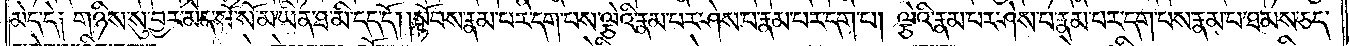མེད་དེ༑ གཉིས་སུ་བྱར་མེད་སོ་སོ་མ་ཡིན་ཐ་མི་དད་དོ། །སྟོབས་རྣམ་པར་དག་པས་ལྕེའི་རྣམ་པར་ཤེས་པ་རྣམ་པར་དག་པ། ལྕེའི་རྣམ་པར་ཤེས་པ་རྣམ་པར་དག་པས་རྣམ་པ་ཐམས་ཅད་
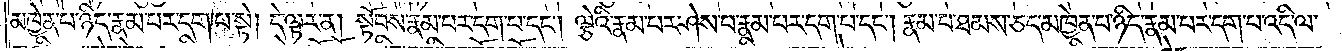མཁྱེན་པ་ཉིད་རྣམ་པར་དག་པ་སྟེ། དེ་ལྟར་ན། སྟོབས་རྣམ་པར་དག་པ་དང༌། ལྕེའི་རྣམ་པར་ཤེས་པ་རྣམ་པར་དག་པ་དང༌། རྣམ་པ་ཐམས་ཅད་མཁྱེན་པ་ཉིད་རྣམ་པར་དག་པ་འདི་ལ་
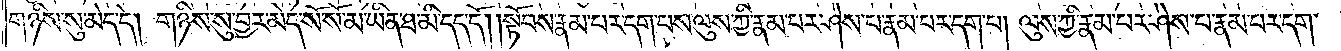གཉིས་སུ་མེད་དེ། གཉིས་སུ་བྱར་མེད་སོ་སོ་མ་ཡིན་ཐ་མི་དད་དོ། །སྟོབས་རྣམ་པར་དག་པས་ལུས་ཀྱི་རྣམ་པར་ཤེས་པ་རྣམ་པར་དག་པ། ལུས་ཀྱི་རྣམ་པར་ཤེས་པ་རྣམ་པར་དག་
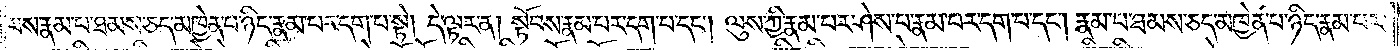པས་རྣམ་པ་ཐམས་ཅད་མཁྱེན་པ་ཉིད་རྣམ་པར་དག་པ་སྟེ། དེ་ལྟར་ན། སྟོབས་རྣམ་པར་དག་པ་དང༌། ལུས་ཀྱི་རྣམ་པར་ཤེས་པ་རྣམ་པར་དག་པ་དང༌། རྣམ་པ་ཐམས་ཅད་མཁྱེན་པ་ཉིད་རྣམ་པར་
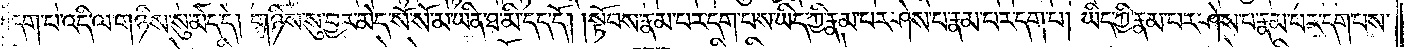དག་པ་འདི་ལ་གཉིས་སུ་མེད་དེ། གཉིས་སུ་བྱར་མེད་སོ་སོ་མ་ཡིན་ཐ་མི་དད་དོ། །སྟོབས་རྣམ་པར་དག་པས་ཡིད་ཀྱི་རྣམ་པར་ཤེས་པ་རྣམ་པར་དག་པ། ཡིད་ཀྱི་རྣམ་པར་ཤེས་པ་རྣམ་པར་དག་པས་
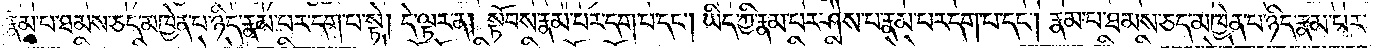རྣམ་པ་ཐམས་ཅད་མཁྱེན་པ་ཉིད་རྣམ་པར་དག་པ་སྟེ། དེ་ལྟར་ན། སྟོབས་རྣམ་པར་དག་པ་དང༌། ཡིད་ཀྱི་རྣམ་པར་ཤེས་པ་རྣམ་པར་དག་པ་དང༌། རྣམ་པ་ཐམས་ཅད་མཁྱེན་པ་ཉིད་རྣམ་པར་
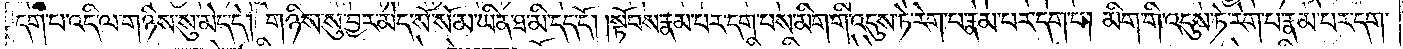དག་པ་འདི་ལ་གཉིས་སུ་མེད་དེ། གཉིས་སུ་བྱར་མེད་སོ་སོ་མ་ཡིན་ཐ་མི་དད་དོ། །སྟོབས་རྣམ་པར་དག་པས་མིག་གི་འདུས་ཏེ་རེག་པ་རྣམ་པར་དག་པ། མིག་གི་འདུས་ཏེ་རེག་པ་རྣམ་པར་དག་
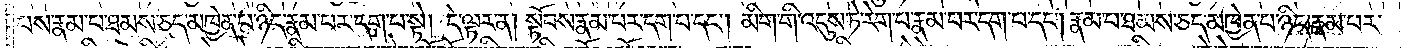པས་རྣམ་པ་ཐམས་ཅད་མཁྱེན་པ་ཉིད་རྣམ་པར་དག་པ་སྟེ། དེ་ལྟར་ན། སྟོབས་རྣམ་པར་དག་པ་དང༌། མིག་གི་འདུས་ཏེ་རེག་པ་རྣམ་པར་དག་པ་དང༌། རྣམ་པ་ཐམས་ཅད་མཁྱེན་པ་ཉིད་རྣམ་པར་
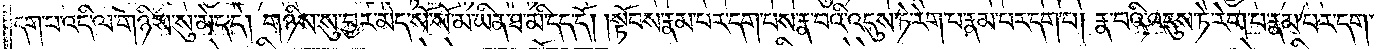དག་པ་འདི་ལ་གཉིས་སུ་མེད་དེ། གཉིས་སུ་བྱར་མེད་སོ་སོ་མ་ཡིན་ཐ་མི་དད་དོ། །སྟོབས་རྣམ་པར་དག་པས་རྣ་བའི་འདུས་ཏེ་རེག་པ་རྣམ་པར་དག་པ། རྣ་བའི་འདུས་ཏེ་རེག་པ་རྣམ་པར་དག་
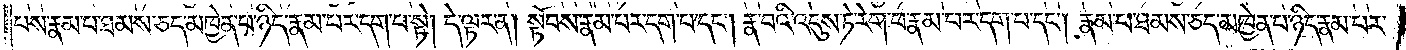པས་རྣམ་པ་ཐམས་ཅད་མཁྱེན་པ་ཉིད་རྣམ་པར་དག་པ་སྟེ། དེ་ལྟར་ན། སྟོབས་རྣམ་པར་དག་པ་དང༌། རྣ་བའི་འདུས་ཏེ་རེག་པ་རྣམ་པར་དག་པ་དང༌། རྣམ་པ་ཐམས་ཅད་མཁྱེན་པ་ཉིད་རྣམ་པར་
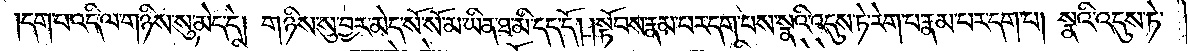དག་པ་འདི་ལ་གཉིས་སུ་མེད་དེ། གཉིས་སུ་བྱར་མེད་སོ་སོ་མ་ཡིན་ཐ་མི་དད་དོ། །སྟོབས་རྣམ་པར་དག་པས་སྣའི་འདུས་ཏེ་རེག་པ་རྣམ་པར་དག་པ། སྣའི་འདུས་ཏེ་
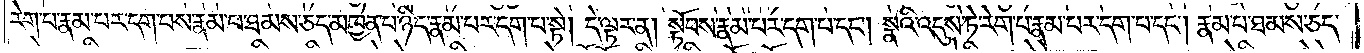རེག་པ་རྣམ་པར་དག་པས་རྣམ་པ་ཐམས་ཅད་མཁྱེན་པ་ཉིད་རྣམ་པར་དག་པ་སྟེ། དེ་ལྟར་ན། སྟོབས་རྣམ་པར་དག་པ་དང༌། སྣའི་འདུས་ཏེ་རེག་པ་རྣམ་པར་དག་པ་དང༌། རྣམ་པ་ཐམས་ཅད་
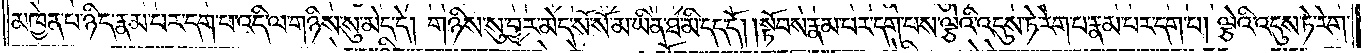མཁྱེན་པ་ཉིད་རྣམ་པར་དག་པ་འདི་ལ་གཉིས་སུ་མེད་དེ། གཉིས་སུ་བྱར་མེད་སོ་སོ་མ་ཡིན་ཐ་མི་དད་དོ། །སྟོབས་རྣམ་པར་དག་པས་ལྕེའི་འདུས་ཏེ་རེག་པ་རྣམ་པར་དག་པ། ལྕེའི་འདུས་ཏེ་རེག་
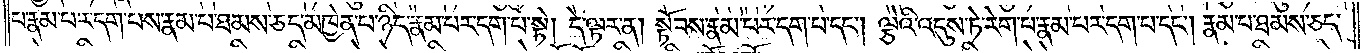པ་རྣམ་པར་དག་པས་རྣམ་པ་ཐམས་ཅད་མཁྱེན་པ་ཉིད་རྣམ་པར་དག་པ་སྟེ། དེ་ལྟར་ན། སྟོབས་རྣམ་པར་དག་པ་དང༌། ལྕེའི་འདུས་ཏེ་རེག་པ་རྣམ་པར་དག་པ་དང༌། རྣམ་པ་ཐམས་ཅད་
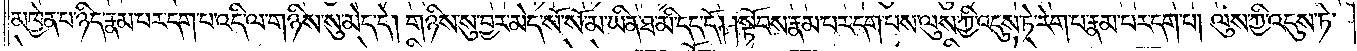མཁྱེན་པ་ཉིད་རྣམ་པར་དག་པ་འདི་ལ་གཉིས་སུ་མེད་དེ། གཉིས་སུ་བྱར་མེད་སོ་སོ་མ་ཡིན་ཐ་མི་དད་དོ། །སྟོབས་རྣམ་པར་དག་པས་ལུས་ཀྱི་འདུས་ཏེ་རེག་པ་རྣམ་པར་དག་པ། ལུས་ཀྱི་འདུས་ཏེ་
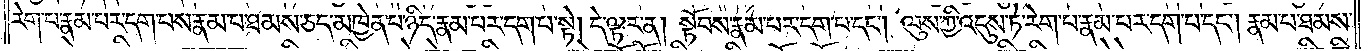རེག་པ་རྣམ་པར་དག་པས་རྣམ་པ་ཐམས་ཅད་མཁྱེན་པ་ཉིད་རྣམ་པར་དག་པ་སྟེ། དེ་ལྟར་ན། སྟོབས་རྣམ་པར་དག་པ་དང༌། ལུས་ཀྱི་འདུས་ཏེ་རེག་པ་རྣམ་པར་དག་པ་དང༌། རྣམ་པ་ཐམས་
